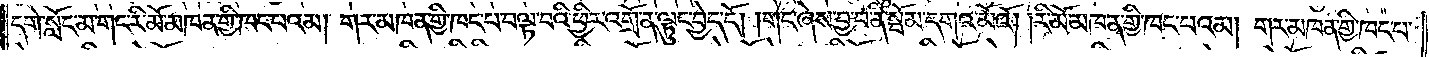དགེ་སློང་མ་གང་རི་མོ་མཁན་གྱི་ཁང་པའམ། གར་མཁན་གྱི་ཁང་པ་བལྟ་བའི་ཕྱིར་འགྲོ་ན་ལྟུང་བྱེད་དོ། །གང་ཞེས་བྱ་བ་ནི་སྦོམ་དགའ་མོའོ། །རི་མོ་མཁན་གྱི་ཁང་པའམ། གར་མཁན་གྱི་ཁང་པ་
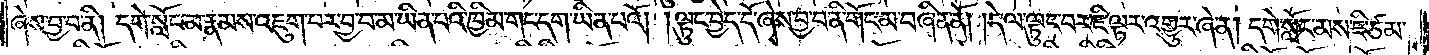ཞེས་བྱ་བ་ནི། དགེ་སློང་མ་རྣམས་འཇུག་པར་བྱ་བ་མ་ཡིན་པའི་ཁྱིམ་གང་དག་ཡིན་པའོ། །ལྟུང་བྱེད་དོ་ཞེས་བྱ་བ་ནི་གོང་མ་བཞིན་ནོ། །དེ་ལ་ལྟུང་བར་ཇི་ལྟར་འགྱུར་ཞེ་ན། དགེ་སློང་མས་ཇི་ཙམ་
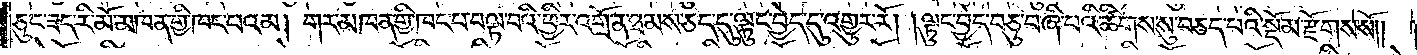ཅུང་ཟད་རི་མོ་མཁན་གྱི་ཁང་པའམ། གར་མཁན་གྱི་ཁང་པ་བལྟ་བའི་ཕྱིར་འགྲོ་ན་ཐམས་ཅད་དུ་ལྟུང་བྱེད་དུ་འགྱུར་རོ། །ལྟུང་བྱེད་བཅུ་བཞི་པའི་ཚིགས་སུ་བཅད་པའི་སྡོམ་རྫོགས་སོ༎
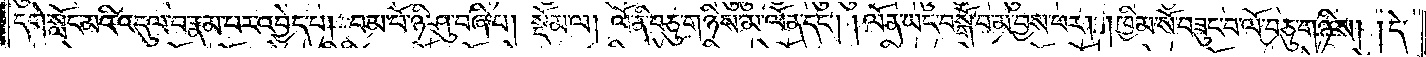དགེ་སློང་མའི་འདུལ་བ་རྣམ་པར་འབྱེད་པ། བམ་པོ་ཉི་ཤུ་བཞི་པ། སྡོམ་ལ། ལོ་ནི་བཅུ་གཉིས་མ་ལོན་དང༌། །ལོན་ཡང་བསྒོ་བ་མ་བྱས་པར། །ཁྱིམ་སོ་བཟུང་བ་ལོ་བཅུ་གཉིས། །དེ་
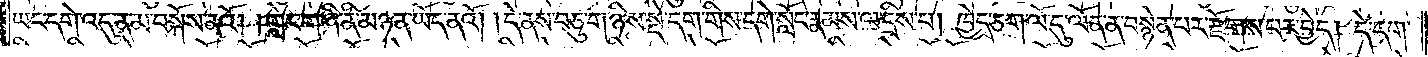ཡང་དགེ་འདུན་མ་བསྐོས་ནའོ། །གླེང་གཞི་ནི་མཉན་ཡོད་ནའོ། །དེ་ནས་བཅུ་གཉིས་སྡེ་དག་གིས་དགེ་སློང་རྣམས་ལ་དྲིས་པ། ཁྱེད་ཅག་ལོ་དུ་ལོན་ན་བསྙེན་པར་རྫོགས་པར་བྱེད། དེ་དག་
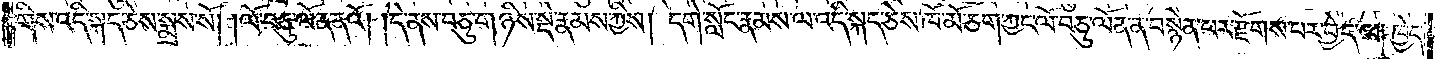གིས་འདི་སྐད་ཅེས་སྨྲས་སོ། །ལོ་བཅུ་ལོན་ནའོ། །དེ་ནས་བཅུ་གཉིས་སྡེ་རྣམས་ཀྱིས། དགེ་སློང་རྣམས་ལ་འདི་སྐད་ཅེས་ཁོ་མོ་ཅག་ཀྱང་ལོ་བཅུ་ལོན་ན་བསྙེན་པར་རྫོགས་པར་བྱེད་ལ། ཁྱེད་
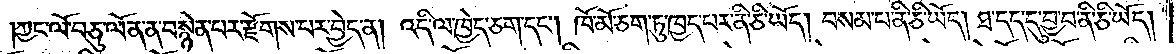།ཀྱང་ལོ་བཅུ་ལོན་ན་བསྙེན་པར་རྫོགས་པར་བྱེད་ན། འདི་ལ་ཁྱེད་ཅག་དང༌། ཁོ་མོ་ཅག་ཏུ་ཁྱད་པར་ནི་ཅི་ཡོད། བསམ་པ་ནི་ཅི་ཡོད། ཐ་དད་དུ་བྱ་བ་ནི་ཅི་ཡོད།
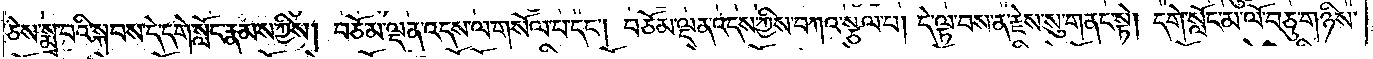ཅེས་སྨྲ་བའི་སྐབས་དེ་དགེ་སློང་རྣམས་ཀྱིས། བཅོམ་ལྡན་འདས་ལ་གསོལ་པ་དང༌། བཅོམ་ལྡན་འདས་ཀྱིས་བཀའ་སྩལ་པ། དེ་ལྟ་བས་ན་རྗེས་སུ་གནང་སྟེ། དགེ་སློང་མ་ལོ་བཅུ་གཉིས་
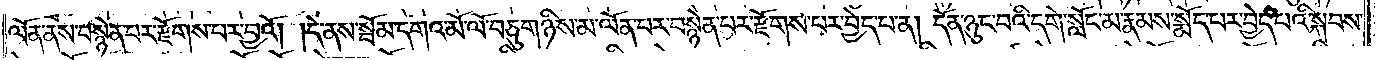ལོན་ནས་བསྙེན་པར་རྫོགས་པར་བྱའོ། །དེ་ནས་སྦོམ་དགའ་མོ་ལོ་བཅུ་གཉིས་མ་ལོན་པར་བསྙེན་པར་རྫོགས་པར་བྱེད་པ་ན། དོན་ཉུང་བའི་དགེ་སློང་མ་རྣམས་སྨོད་པར་བྱེད་པའི་སྐབས་
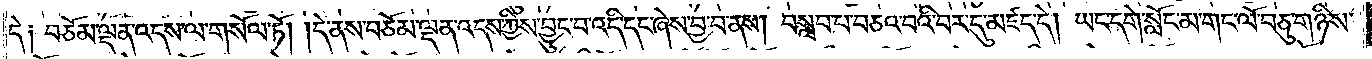དེ༑ བཅོམ་ལྡན་འདས་ལ་གསོལ་ཏོ། །དེ་ནས་བཅོམ་ལྡན་འདས་ཀྱིས་བྱུང་བ་འདི་དང་ཞེས་བྱ་བ་ནས། བསླབ་པ་བཅའ་བའི་བར་དུ་མཛད་དེ། ཡང་དགེ་སློང་མ་གང་ལོ་བཅུ་གཉིས་
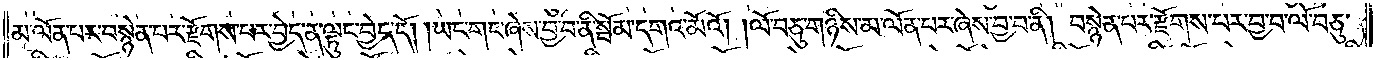མ་ལོན་པར་བསྙེན་པར་རྫོགས་པར་བྱེད་ན་ལྟུང་བྱེད་དོ། །ཡང་གང་ཞེས་བྱ་བ་ནི་སྦོམ་དགའ་མོའོ། །ལོ་བཅུ་གཉིས་མ་ལོན་པར་ཞེས་བྱ་བ་ནི། བསྙེན་པར་རྫོགས་པར་བྱ་བ་ལོ་བཅུ་
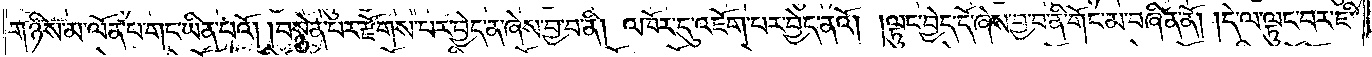གཉིས་མ་ལོན་པ་གང་ཡིན་པའོ། །བསྙེན་པར་རྫོགས་པར་བྱེད་ན་ཞེས་བྱ་བ་ནི། འཁོར་དུ་འཇོག་པར་བྱེད་ནའོ། །ལྟུང་བྱེད་དོ་ཞེས་བྱ་བ་ནི་གོང་མ་བཞིན་ནོ། །དེ་ལ་ལྟུང་བར་ཇི་
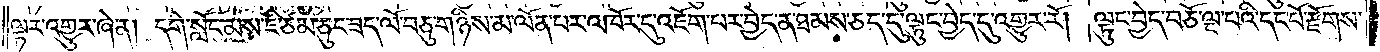ལྟར་འགྱུར་ཞེ་ན། དགེ་སློང་མས་ཇི་ཙམ་ཅུང་ཟད་ལོ་བཅུ་གཉིས་མ་ལོན་པར་འཁོར་དུ་འཇོག་པར་བྱེད་ན་ཐམས་ཅད་དུ་ལྟུང་བྱེད་དུ་འགྱུར་རོ། །ལྟུང་བྱེད་བཅོ་ལྔ་པའི་དང་པོ་རྫོགས་
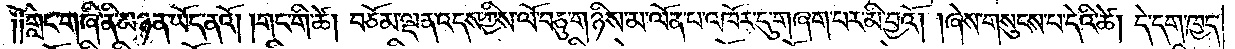༑༑གླེང་གཞི་ནི་མཉན་ཡོད་ནའོ། །གང་གི་ཚེ། བཅོམ་ལྡན་འདས་ཀྱིས་ལོ་བཅུ་གཉིས་མ་ལོན་པ་འཁོར་དུ་གཞག་པར་མི་བྱའོ། །ཞེས་གསུངས་པ་དེའི་ཚེ། དེ་དག་ཁྱད་
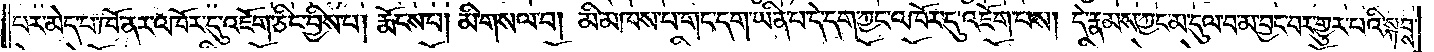པར་མེད་པ་ཁོ་ནར་འཁོར་དུ་འཇོག་ཅིང་བྱིས་པ། རྨོངས་པ། མི་གསལ་བ། མི་མཁས་པ་གང་དག་ཡིན་པ་དེ་དག་ཀྱང་འཁོར་དུ་འཇོག་པས། དེ་རྣམས་ཀྱང་མ་དུལ་བ་མ་བྱང་བར་གྱུར་པའི་སྐབས་
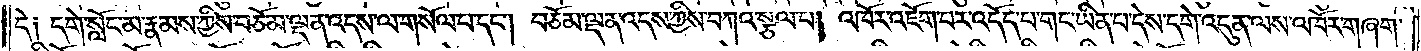དེ༑ དགེ་སློང་མ་རྣམས་ཀྱིས་བཅོམ་ལྡན་འདས་ལ་གསོལ་པ་དང༌། བཅོམ་ལྡན་འདས་ཀྱིས་བཀའ་སྩལ་པ། འཁོར་འཇོག་པར་འདོད་པ་གང་ཡིན་པ་དེས་དགེ་འདུན་ལས་འཁོར་གཞག་
